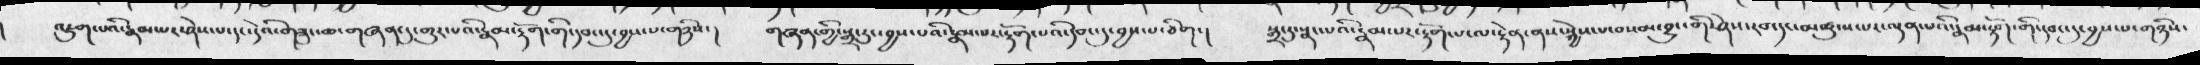འཇུག་པའི་རྣམ་པར་ཤེས་པ་དང་དེའི་གཟུང་ཆ་གཞན་དུ་གྱུར་པའི་རྣམ་རྟོག་གི་དབང་དུ་བྱས་པ་གཉིས་།  གཞན་གྱི་སྒྲ་རུ་བྱས་པའི་རྣམ་པར་རྟོག་པའི་དབང་དུ་བྱས་པ་ཅིག་།  སྒྲ་རུ་སྣང་པའི་རྣམ་པར་རྟོག་པ་ལ་རྟེན་ནས་སྐྱེས་པ་མསམ་བྱུང་གི་ཤེས་རབ་དང་མཚུངས་པར་ལྡན་པའི་རྣམ་རྟོག་གི་དབང་དུ་བྱས་པ་གཉིས་
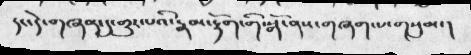དང་དེ་གཞན་དུ་གྱུར་པའི་རྣམ་རྟོག་གི་སྒོ་ནས་གཞག་པ་གསུམ་།
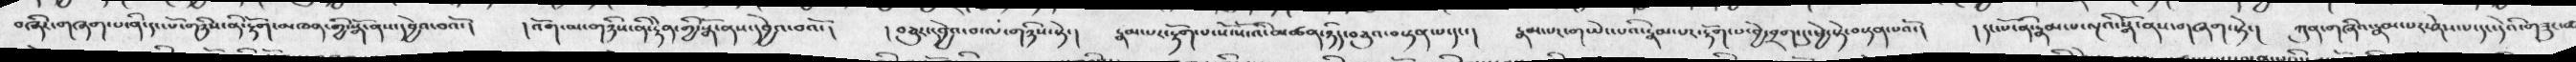བཞིར་གཞག་པ་ནི་དང་པོ་གཉིས་ནི་རྟོག་མཁན་གྱི་སྒོ་ནས་དབྱེའ་བའོ་།  ། འོག་མ་གཉིས་ནི་རྟེན་གྱི་སྒོ་ནས་དབྱེའ་བའོ་།  ། བཅུར་དབྱེའ་བ་ལ་གཉིས་སྟེ་།   རྣམ་པར་རྟོག་པ་སོ་སོ་འི་མཚན་ཉིད་བཅུའ་བསྟན་པ་དང་།  རྣམ་པར་གཡེང་པའི་རྣམ་པར་རྟོག་པ་བྱེ་བྲག་དུ་ཕྱེ་སྟེ་བསྟན་པའོ་།   ། དང་པོ་ནི་རྣམ་པ་ལྔའི་སྒོ་ནས་གཞག་སྟེ་།  ཀུན་གཞིའ་རྣམ་པར་ཤེས་པ་དང་དེའི་གཟུང་བ
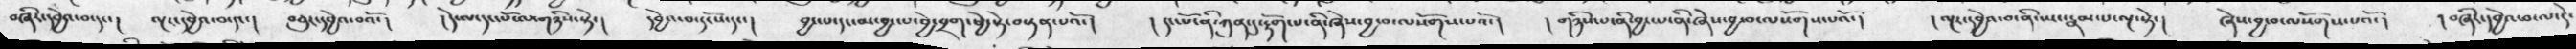བཞིར་དབྱེའ་བ་དང་།  ལྔར་དབྱེའ་བ་དང་།  བཅུར་དབྱེའ་བའོ་།   །དེ་ལ་དང་པོ་ལ་གཉིས་སྟེ་།  དབྱེའ་བ་དངོས་དང་།  བྱང་པ་དང་མ་བྱང་པ་བྱེ་བྲག་ཕྱེ་སྟེ་བསྟན་པའོ་།   ད དང་པོ་ནི་ཀུན་དུ་རྟོག་པ་ནི་ཞེས་བྱ་བ་ལསོགས་པའོ་།   གཉིས་པ་ནི་བྱང་པ་ནི་ཞེས་བྱ་བ་ལསོགས་པའོ་།  ། ལྔར་དབྱེའ་བ་ནི་ཡང་རྣམ་པ་ལྔ་སྟེ་།   ཞེས་བྱ་བ་ལསོགས་པའོ་།   ། བཞིར་དབྱེའ་བ་ལ་དེ་
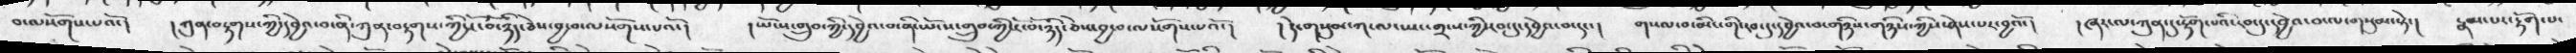བ་ལསོགས་པའོ་།  ། ཀུན་བརྟགས་ཀྱི་དབྱེའ་བ་ནི་ཀུན་བརྟགས་ཀྱི་ངོ་བོ་ཉིད་ཅེས་བྱ་བ་ལསོགས་པའོ་།   །  ཡོངས་གྲུབ་ཀྱི་དབྱེའ་བ་ནི་ཡོངས་གྲུབ་ཀྱི་ངོ་བོ་ཉིད་ཅེས་བྱ་བ་ལསོགས་པའོ་།    ། དེ་གསུམ་ཀ་ལ་ཡང་གྲངས་ཀྱི་དབང་དུ་དབྱེའ་བ་དང་།   གསལ་བ་མིང་གི་དབངདུ་དབྱེའ་བ་གཉིས་གཉིས་ཀྱིས་ཤེས་པར་བྱའོ་།   །ཞར་ལ་ཀུན་དུ་རྟོག་པའི་རབ་དུ་དབྱེའ་བ་ལ་གསུམ་སྟེ་།   རྣམ་པར་རྟོག་པ་
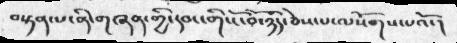བསྟན་པ་ནི་གཞན་གྱི་དབང་གིས་ངོ་བོ་ཉིད་ཅེས་པ་ལསོགས་པའོ་།
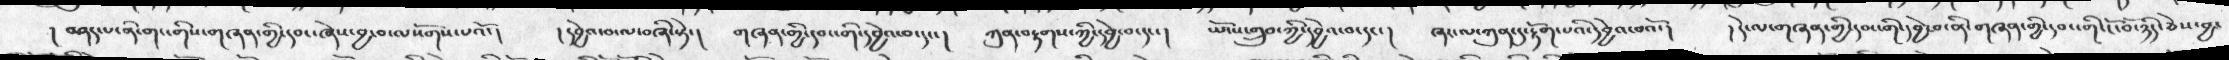། བཤད་པ་ནི་གང་གིས་གཞན་གྱི་དབང་ཞེས་བྱ་བ་ལསོགས་པའོ་།   ། དབྱེའ་བ་ལ་བཞི་སྟེ་།  གཞན་གྱི་དབང་གི་དབྱེའ་བ་དང་།   ཀུན་བརྟགས་ཀྱི་དབྱེ་བ་དང་།   ཡོངས་གྲུབ་ཀྱི་དབྱེའ་དང་།  ཞར་ལ་ཀུན་དུ་རྟོག་པའི་དབྱེའ་བའོ་།   ། དེ་ལ་གཞན་གྱི་དབང་གི་དབྱེ་བ་ནི་གཞན་གྱི་དབང་གི་ངོ་བོ་ཉིད་ཅེས་བྱ་
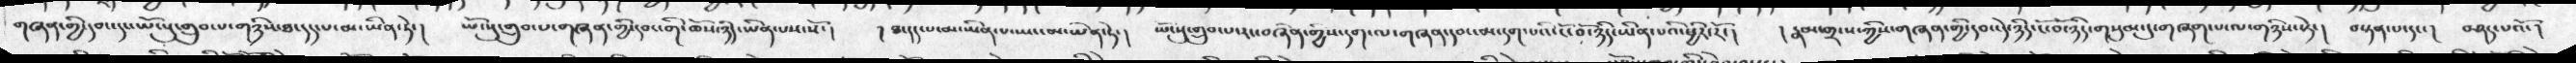གཞན་གྱི་དབང་དང་ཡོངསུ་གྲུབ་པ་གཉིས་ཐ་དད་པ་མ་ཡིན་ཏེ་།  ཡོངསུ་གྲུབ་པ་གཞན་གྱི་དབང་གི་ཆོས་ཉིད་ཡིན་པས་སོ་།  ། ཐ་དད་པ་མ་ཡིན་པ་ཡང་མ་ཡིན་ཏེ་།  ཡོངསུ་གྲུབ་པ་རང་བཞིན་གྱིས་དག་ལ་གཞན་དབང་མ་དག་པའི་ངོ་བོ་ཉིད་ཡིན་པའི་ཕྱིར་རོ་།  ། རྣམ་གྲངས་ཀྱིས་གཞན་གྱི་དབང་དེ་ཉིད་ངོ་བོ་ཉིད་གསུམ་དུ་གཞག་པ་ལ་གཉིས་ཏེ་།   བསྟན་པ་དང་།  བཤད་པའོ་།
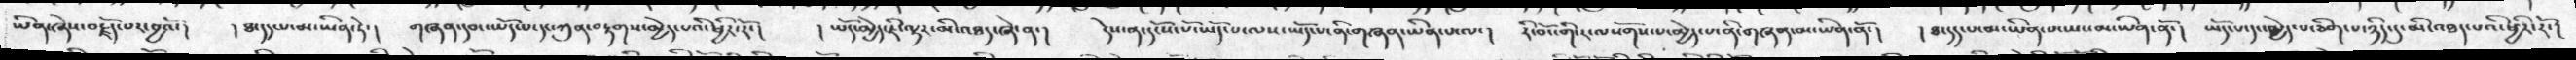ཡིན་ཞེས་བརྗོད་པར་བྱའོ་།  ། ཐ་དད་པ་མ་ཡིན་ཏེ་།  གཞན་དབང་ཡོད་པ་དང་ཀུན་བརྟགས་མྱེད་པའི་ཕྱིར་རོ་།  ། ཡོད་མྱེད་ཇི་ལྟར་མི་འཐད་ཞེ་ན་།   དེས་ན་དངོས་པོ་ཡོད་པ་ལས་ཡོད་པ་ནི་གཞན་ཡིན་པ་ལ་།  རི་བོང་གི་ར་ལསོགས་པ་མྱེད་པ་ནི་གཞན་མ་ཡིན་ནོ་།    ། ཐད་པ་མ་ཡིན་པ་ཡང་མ་ཡིན་ནོ་།   ཡོད་པ་དང་མྱེད་པ་མྱེད་པ་ཅིག་པ་ཉིད་དུ་མི་འཐད་པའི་ཕྱིར་རོ་།
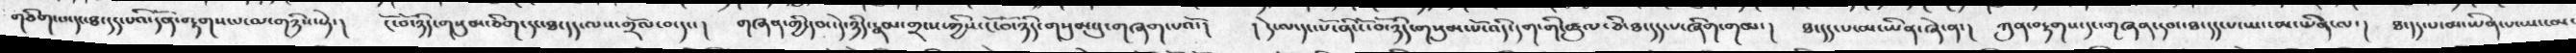གཅིག་པ་དང་ཐ་དད་པའི་དོན་བརྟགས་པ་ལ་གཉིས་སྟེ་ །  ངོ་བོ་ཉིད་གསུམ་ཅིག་དང་ཐ་དད་ལས་གྲོལ་བ་དང་།  གཞན་གྱི་དབང་དེ་ཉིད་རྣམ་གྲངས་གྱིས་ངོ་བོ་ཉིད་གསུམསུ་གཞག་པའོ་།     ། དེ་ལ་དང་པོ་ནི་ངོ་བོ་ཉིད་གསུམ་པོ་འདི་དག་གི་ཚུལ་ཅི་ཐ་དད་པ་ཞིག་གམ་།    ཐ་དད་པ་མ་ཡིན་ཞེ་ན་།    ཀུན་བརྟགས་དང་གཞན་དབང་ཐ་དད་པ་ཡང་མ་ཡིན་ལ་།  ཐ་དད་མ་ཡིན་པ་ཡང་མ་
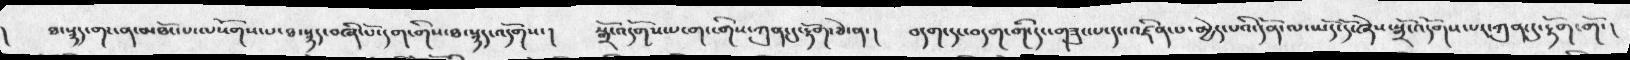།   ཐ་སྙད་གང་ན་མཐོང་པ་ལསོགས་པ་ཐ་སྙད་བཞི་པོ་དག་གིས་ཐ་སྙད་འདོགས་།  སྒྲོ་འདོག་པ་ངག་གི་ཀུན་དུ་རྟོག་ཅེ་ན་།  བདག་དང་བདག་གི་དང་གཟུང་པ་དང་འཛིན་པ་མྱེད་པའི་དོན་ལ་ཡོད་དོ་ཞེས་སྒྲོ་འདོགས་པ་ཀུན་དུ་རྟོག་གོ་།
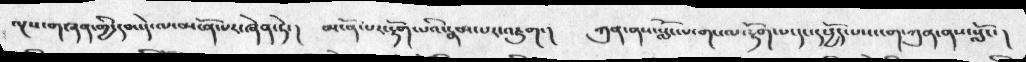ལྔས་གཞན་གྱི་དབང་དེ་ལ་མངོན་པར་ཞེན་ཏེ་།   མངོན་པར་རྟོག་པའི་རྣམ་པར་འཇུག་།   ཀུན་ནས་སྨོང་པ་གསལ་རྟོག་པ་དང་དཔྱོད་པས་ངག་ཀུན་ནས་སློང་།
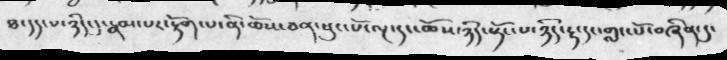ཐ་དད་པ་ཉིད་དུ་རྣམ་པར་རྟོག་པ་ནི་ཆོས་ཅན་ཕུང་པོ་ལྔ་དང་ཆོས་ཉིད་སྟོང་པ་ཉིད་རྟ་དང་གླང་པོ་བཞིན་དུ་
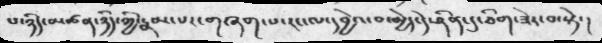པ་ཉིད་མཚན་ཉིད་གྱི་རྣམ་པར་གཞག་པ་རང་ལ་དབྱེའ་བ་མྱེད་དེ་ཤིན་དུ་ཅིག་ཟེར་བ་སྟེ་།
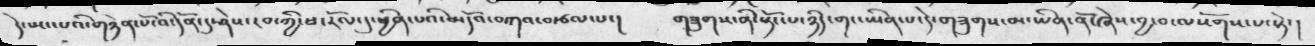དེ་ཡང་པའི་གཉེན་པོ་འི་དོན་དུ་ཤེས་རབ་ཀྱི་ཕ་རོལ་དུ་ཕྱིན་པའི་མདོའ་བཀའ་བརྩལ་པ་།     གཟུགས་ནི་སྟོང་པ་ཉིད་གང་ཡིན་པ་དེ་གཟུགས་མ་ཡིན་ནོ་ཞེས་བྱ་བ་ལསོགས་པ་སྟེ་།
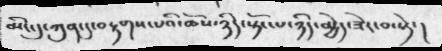མིང་དུ་ཀུན་བརྟགས་པའི་ཆོས་ཉིད་སྟོང་པ་ཉིད་མྱེད་ཟེར་བ་སྟེ་།
